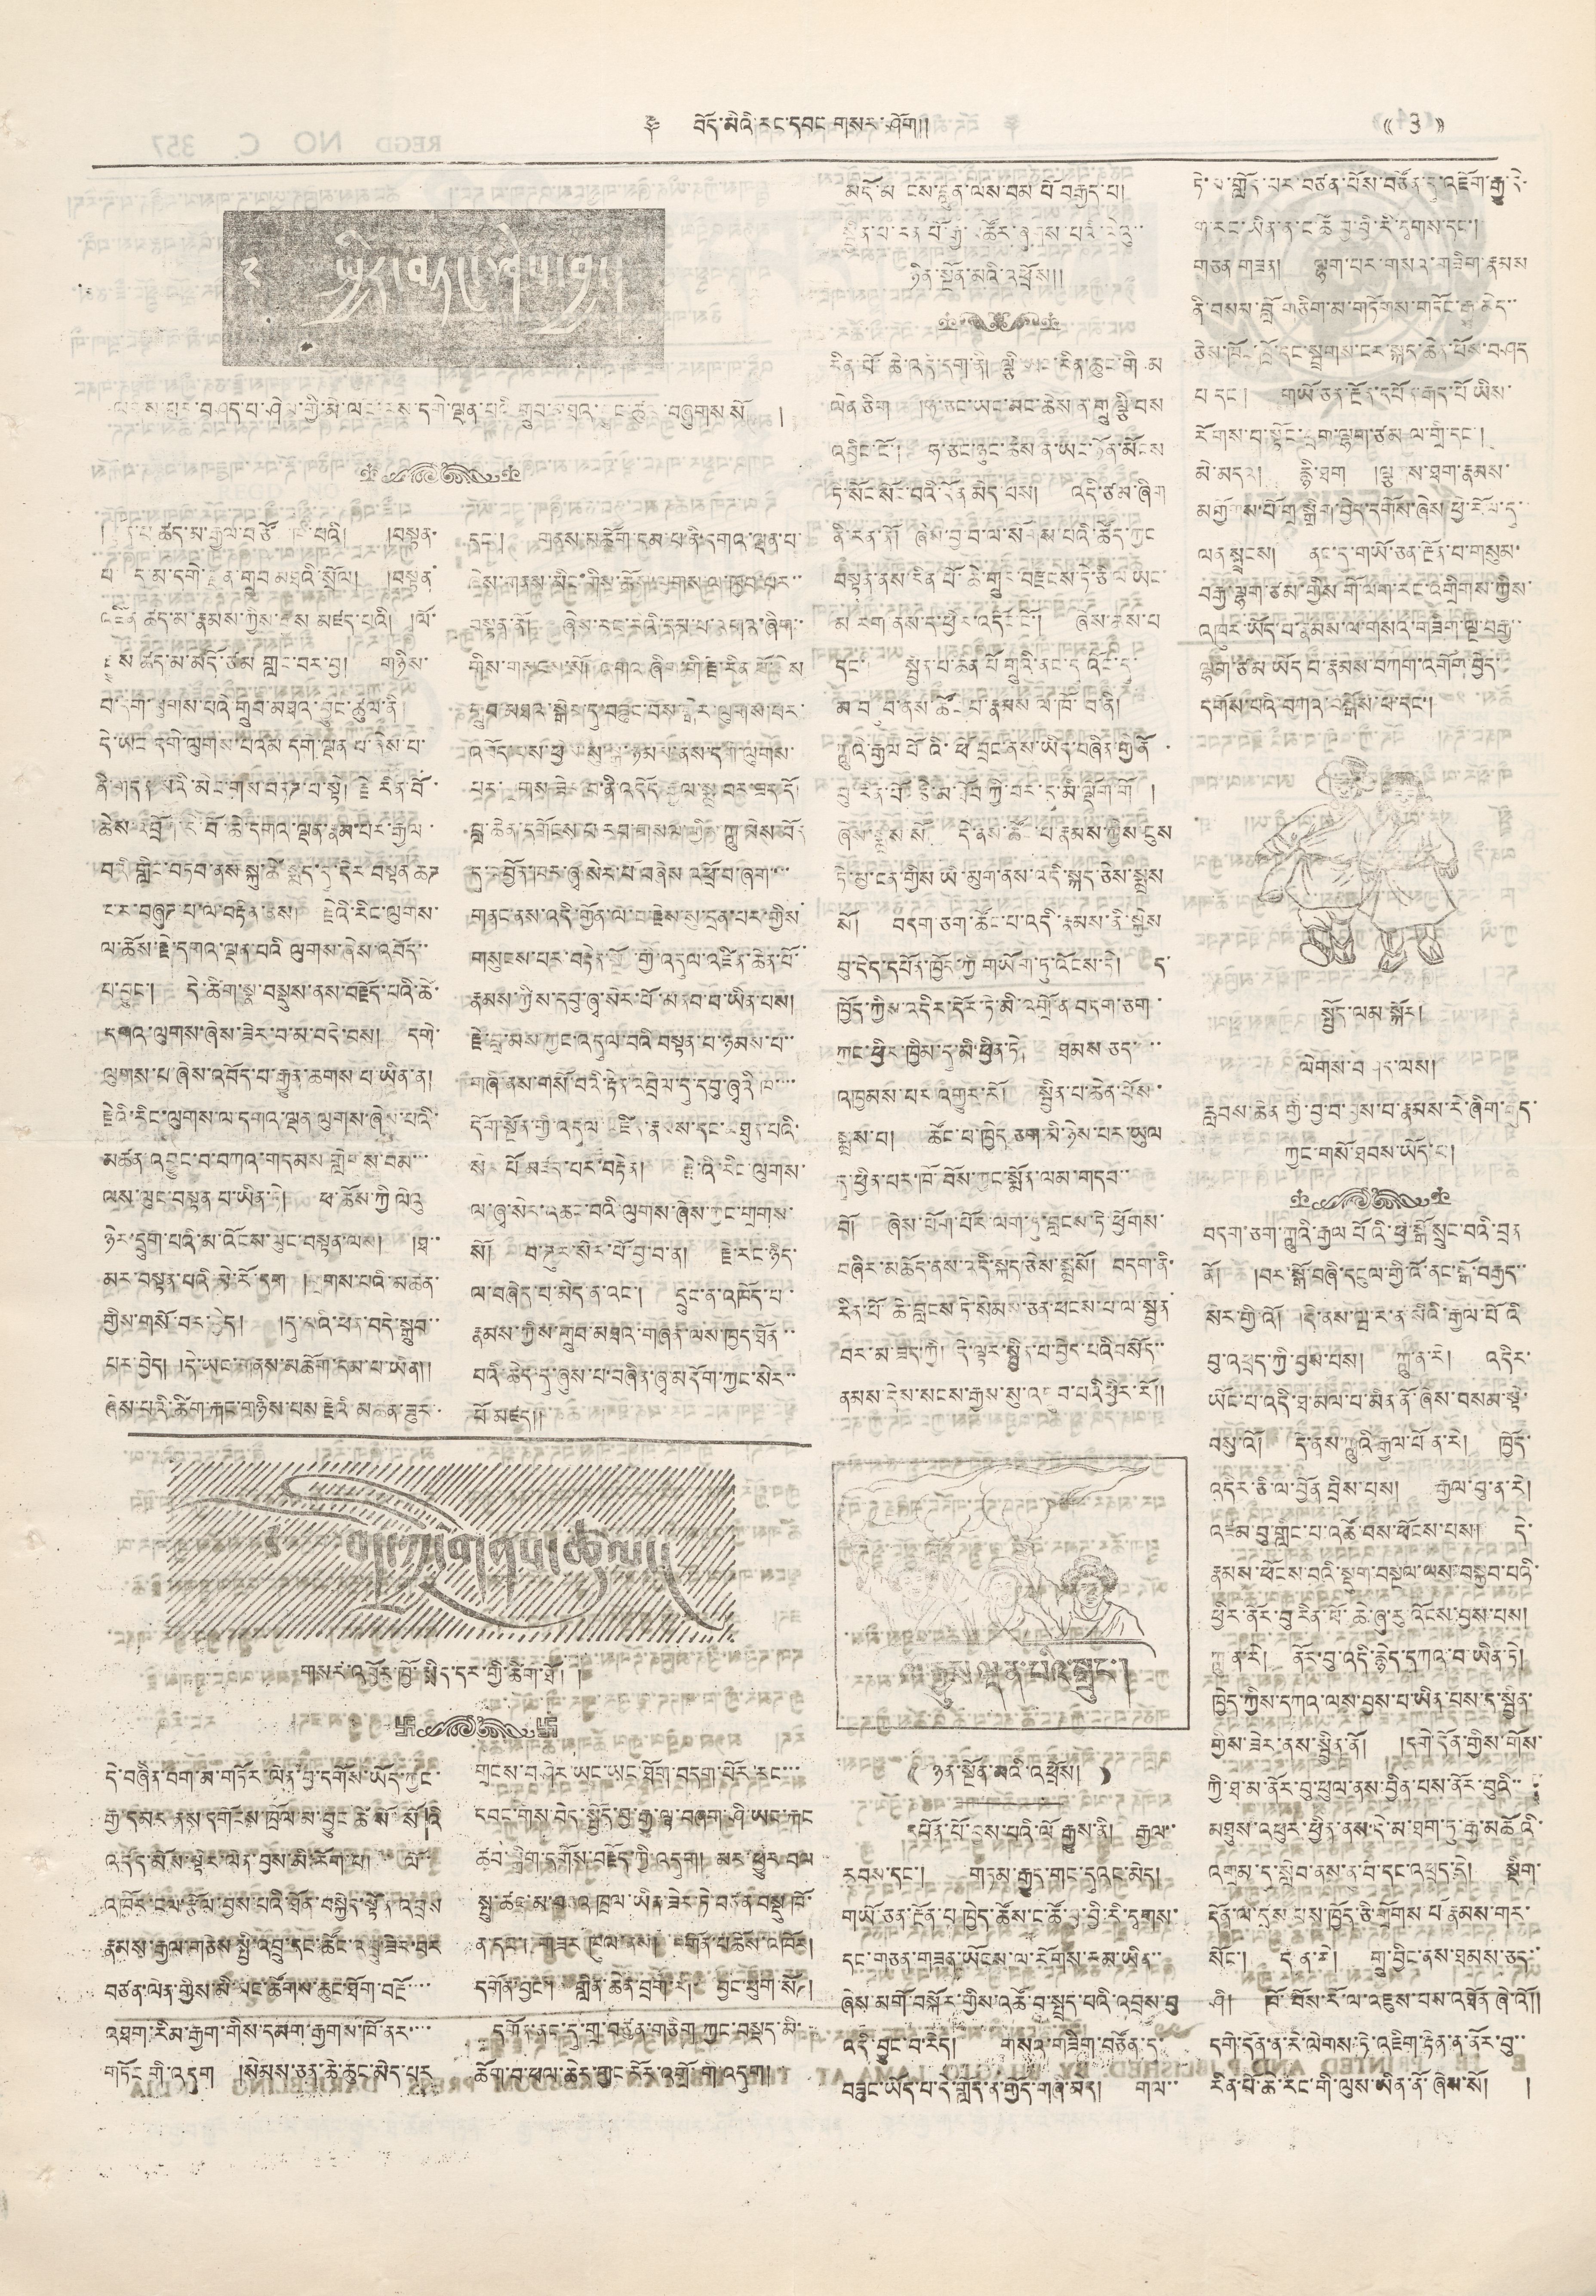༈ བོད་མའི་རང་དབང གསར་ཤོག༎ (( 3 ))
༄ སྤྱིར་བཏང་ཤེས་བྱ།
ལདས་བར་བཤད་པ་ཤེལ་གྱི་མེ་ལོང་ལས་དགེ་ལྡན་པའི གྲུབ་མཐའ་བྱུང་ཚུལ་བཞུགས་སོ། །
།སྟོན་པ ཚད་མ་རྒྱལ་བཙོང་ཁ་པའི། །བསྟན་
པ་ཚད་མ་དགེ་ལྡན་གྲུབ མཐའི་སྲོལ། །བསྟན་
འཛིན ཚད་མ་རྣམས་ཀྱིས་རྒྱས མཛད་པའི། །ལོ་
རྒྱུས་ཚད་མ་མདོ་ཙམ་གླང་བར་བྱ། གཉིས་
བ་དག་ཐུགས་པའི་གྲུབ་མཐའ་བྱུང་ཚུལ་ནི
དེ་ཡང དགེ་ལུགས་པའམ་དགེ་ལྡན་པ་ཞེས་པ་
ནི་གདན སའི་མིང་གས་བཏཌ་པ་སྟེ། རྗེ རིན་པོ་
ཆེས་འབྲོག་རེ་བོ་ཆེ་དགའ་ལྡན་རྣམ་པར་རྒྱལ་
བའི གླིང་བཏབ་ནས སྐུ་ཚེ་སྨད་དུ་དེར་བསྟན ཆཌ་
པར་བཞུཌ་པ་ལ་བརྟེན་ནས། རྗེའི་རིང་ལུགས་
ལ་ཆོས་རྗེ་དགའ་ལྡན་པའི ལུགས་ཞེས་འབོད་་
པ་བྱུང་། དེ་ཚིག་སྣ་བསྡུས་ནས་བརྗོད་པའི་ཚེ་
དགའ་ལུགས་ཞེས་ཟེར་པ་མ་བདེ་བས། དགེ་
ལུགས་པ་ཞེས་འབོད་པ་རྒྱུན་ཆགས་པ་ཡིན་ན།
རྗེའི་རིང་ལུགས་ལ་དགའ་ལྡན་ལུགས་ཞེས་པའི་
མཚན་འབྱུང་བ་བཀའ་གདམས གླིགས་བམ་་་
ལས་ལུང་བསྟན པ་ཡིན་ཏེ། ཕ་ཆོས་ཀྱི ལེའུ
ཉེར་དྲུག་པའི་མ་འོངས་ལུང་བསྟན་ལས། །ཐ་་
མར་བསྟན་པའི་མེ་རོ་དག །གྲགས་པའི་མཚན་
གྱིས་གསོ་བར་བྱེད། །དུ་མའི་ཕན་བདེ་སྒྲུབ་་
པར་བྱེད། དེ་ཡང་གནས་མཆོག་དམ་པ་ཡིན།།
ཞེས་པའི་ཚིག་རྐང་གཉིས་པས་རྗེའི མཚན་ཟུར་
དང་། གནས་མཆོག་དམ་པ་ནི་དགའ་ལྡན་པ་
ཞེས་གནས་མིང་གིས་ཆོས་ལུགས་ལ་ཁྱབ་པར་་
བསྟན་ནོ། ཞེས་རང་རེའི་དམ་པ་འགའ་ཞིག་་
གིས་གསངས་སོ། འགའ་ཞིག་གི་རྗེ་རིན་པོ་ཆེས
གྲུབ་མཐའ་སྒེར་དུ་བཟུང་བས་སྒེར་ལུགས་པར་
འབོད་པས་ཕྱིས་སུ་སྒྲ་ཉམས་ནས་དགེ་ལུགས་
པར་གྲགས་ཟེར་བ་ནི་འདོད་རྒྱལ་སྨྲ་བར་ཟད་དོ
བླ་ཆེན་དགོངས་པ་རབ་གསལ་གྱིས་ཀླུ་མེས་བོད
དུ་འབྱོན་ཁར་ཞྭ་སེར་པོ་བཞེས འཕྲོ་བ་ཞག་་་་
གནང་ནས་འདི་གྱོན་ལ་པ་རྗེས་སུ་དྲན་པར་གྱིས
གསུངས་པར་བརྟེན་སྔོ་གྱི་འདུལ་འཛིན་ཆེན་པོ་
རྣམས་ཀྱིས་དབུ་ཞྭ་སེར་པོ་མནབ་པ་ཡིན་པས།
རྗེ་བླ་མས་ཀྱང་འདུལ་བའི བསྟན་པ་ཉམས་པ་་
གཞི་ནས་གསོ་བའི་རྟེན་འབྲེལ་དུ་དབུ་ཞྭའི་ཁ་་་་
དོག་སྔོན་གྱི་འདུལ་འཛིན་རྣམས་དང་མཐུན་པའི་
སེར་པོ མཛད་པར་བརྟེན། རྗེའི་རིང་ལུགས་
ལ་ཞྭ་སེར་འཆང་བའི་ལུགས་ཞེས་ཀྱང་གྲགས་
སོ། བ་ཌུར་སེར་པོ་བྱ་བ་ན། རྗེ་རང་ཉིད་
ལ་བཞེད་པ་མེད་ན་འང་། དྲུང་ན་འཁོད་པ་
རྣམས་ཀྱིས་གྲུབ་མཐའ་གཞན་ལས་ཁྱད་ཐོན་་
པའི་ཆེད་དུ་ཞུས་པ་བཞིན་ཞྭ་མདོག་ཀྱང་སེར་་
པོ མཛད།།
༄། བོད་ཀྱི་གནས་ཚུལ།
གསར་འབྱོར་ཁྱོ་སྨིད་དར་གྱི་ཚིག་ཐོ། །
དེ་བཞིན་བག་མ་གཏོར་ལེན་བྱ་དགོས་ཡོད་ཀྱང་
རྒྱ་དམར ནས་དགོངས་ཁྲོལ་མ་བྱུང ཚེ སོ་སོའི
འདོད་མོས་སྟེར་ལེན་བྱས་མི་ཆོག་པ། ལོ་་
འཁོར་ངལ་རྩོལ་བྱས་པའི་ཐོན་བསྐྱེད་སྟོན་འབྲས
རྣམས་རྒྱལ་གཅེས་སྤྱི་འབྲུ་དང་ཚོང་འབྲུ་ཟེར་བར
བཙན་ལེན་གྱིས་མི་མང་ཚོགས་ཆུང་ཐོག་བརྔོ་་་་
འཐག་རིམ་རྒྱག་གིས་དམག་རྒྱགས་ཁོ་ནར་་་་
གཏོང་གི་འདུག །སེམས་ཅན་ཆེ་ཆུང་མེད་པར
གྲངས་བཤེར་ཡང་ཡང་ཐོག་བདག་པོར་རང་་་
དབང་གིས་བདེ་སྤྱོད་བྱ་རྒྱུ་ལྟ་བཞག་ཤི་ཡང་རྐང
ཚུབ་སྒྲིག་དགོས་བརྗོད་ཀྱི་འདུག། མར་ཕྱུར བལ
སྤུ་ཚང་མ་བཅའ་ཁྲལ་ཡིན་ཟེར་ཏེ་བཙན་བསྡུ ཁོ་
ན་དང་། གཟར་ཁུལ་ནས། དགོན་པ་ཆོས་འཁོར།
དགོན་བྱང་། གླིང་ཆེན་བྲག་རི། བྱང་ཕུག་སོཌ།
དགོན་ནང་དུ་གྲ་བཙུན་གཅིག ཀྱང་བསྡད་མི་
ཆོག་བ་ཕལ་ཆེར་གྱང་རོར་འགྲོ་གི་འདུག།
མདོ་མ ངས་བླུན་ལ་བམ པོ བརྒྱད་པ།
སྦྱིན་པ་རན པོ་རྒྱ་མཚོར་ཞུགས་པའི་ལེའུ་་
ཉིན་སྔོན་མའི་འཕྲོས།།
རིན་པོ་ཆེ་འདི་དག་ནི། ལྕི་ཡང་རིན་ཆུང་གི མ
ལེན ཅིག །ཧ་ཅང་ཡང་མང་ཆེས ན་གྲུ་ལྕི་བས
འབྱིང་ངོ་། ཧ་ཅང་ཉུང་ཆེས་ན་ཡང་ཉོན་མོངས
ཏེ་སོང་སོང་བའི་དོན མེད་པས། འདི་ཙམ་ཞིག
ནི་རན་ནོ། ཆེས་བྱ་བ་ལ་སོགས་པའི་ཚོད་ཀྱང
བསྟན་ནས་རིན་པོ་ཆེ་གྲུང་བརྫངས་ཏེ་ཅི་ལ ཡང་
མ རག ནས་ད་ཕྱིར་འདོང་ངོ་། ཞེས་ཆས་པ
དང་། སྦྱིན་པ་ཆན་པོ གྲུའི་ནང་དུ འོང་དུ་
མ བཏུབ་ནས་ཚོང་པ་རྣམས ལ་ཁོ་བ་ནི།
ཀླུའི་རྒྱལ པོའི་ཕོ་བྲང་ནས་ཡིད་བཞིན་གྱི ནོ
བུ་རིན་པོ་ཆེ་མ་ཐོབ་ཀྱི་བར་དུ་མི་ལྡིག་གི །
ཞེས་སྨྲས་སོ། དེ་ནས་ཚོང་པ་རྣམས་ཀྱིས་ངུས་
དེ་མྱ་ངན་གྱིས ཡི་མུག་ནས་འདི་སྐད་ཅེས་སྨྲས
སོ། བདག་ཅག་ཚོང་པ་འདི་རྣམས་ནི་སྐྱེས
བུ་དེད་དཔོན་ཁྱོད་ཀྱི གཡོག་ཏུ་འོངས་ཏེ། ད་
ཁྱོད་ཀྱིས་འདིར་དོར་ཏེ་མི་འགྲོ་ན་བདག་ཅག་
ཀྱང་ཕྱིར་ཁྱིམ་དུ་མི་ཕྱིན་ཏེ། ཐམས་ཅད་་་་
འཁྱམས་པར་འགྱུར་རོ། སྦྱིན་པ་ཆེན་པོས་
སྨྲས་པ། ཚོང་པ་ཁྱེད ཅག་མི་ཉེས་པར་ཡུལ
དུ་ཕྱིན་པར་ཁོ་བོས་ཀྱང་སྨོན་ལམ་གདབ་་
བོ། ཞེས་པོག་པོར་ལག་ཏུ་བླངས་ཏེ་ཕྱོགས་
བཞིར་མཆོད་ནས་འདི་སྐད་ཅེས་སྨྲསོ། བདག་ནི་
རིན་པོ་ཆེ་བ༹ླངས་ཏེ་སེམས་ཅན་ཕངས་པ་ལ་སྦྱན
བར་མ་ཟད་ཀྱི། དེ་ལྟར་སྦྱིན་པ་བྱེད་པའི བསོད་་་
ནམས་དེས་སངས་རྒྱས་སུ་འགྲུབ་པའི་ཕྱིར་རོ།།
ལོ་རྒྱས་ལྡན་པའི་སྒྲུང་།
(( ཉིན་སྔོན་མའི་འཕྲོས། ))
དཔོན་པོ་བྱས་པའི་ལོ རྒྱུས་ནི། རྒྱལ་་
རབས་དང་། གཏམ་རྒྱུད་གང་དུའང་མེད།
གཡོ་ཅན་རྔོན་པ་ཁྱེད་ཚོས་ང་ཚོ་བྱ་བྱི་དྭགས་
དང་གཅན་གཟན་ཡོངས་ལ་རོགས་རམ་ཡིན་་
ཞེས་མགོ་བསྐོར་གྱིས་འཚོ་བ་སྤྲད་པའི་འབྲས་བུ
འདི་བྱུང་བ་རེད། གསའ་གཟིག་བཙོན་དུ་
བཟུང་ཡོད་པ་དེ་གློད་ན་གྱོད་གཞི་མེད། གལ་་
ཏེ་པ་གློད་པར་བཙན་པོས་བཙོན་དུ་འཇོག་རྒྱ་དེ་
ག་རང་ཡིན་ན་ང་ཚོ་བྱ་བྱི་རི་དྭགས་དང་།
གཅན གཟན། ལྷག་པར་གསའ་གཟིག་རྣམས
ནི་བསམ་བློ་གཅིག་མ་གཏོགས་གདོང་རྒྱུ་མེད་་
ཅེས་ཁོང་ཁྲོ་དང་སྦྲགས་ངར་སྐར་ཆེན་པོས་བཤད
པ དང་། གཡོ་ཅན་རྔོན་དཔོན་རྒད་པོ་ཡིས་
རོགས་པ་སྟོང་དྲག་ལྷག་ཙམ ལ་གྲི་དང་།
མེ་མདའ། རྙི་ཐག །ལྕགས་ཐག་རྣམས་
མགྱོགས་པོ་གྲ་སྒྲིག་བྱེད་དགོས་ཞེས་ཕྱེ་རོལ་དུ་་
ལན སྤྲངས། ནང་དུ་གཡོ་ཅན་རྔོན་བ་གསུམ་
བརྒྱ་ལྷག་ཙམ་གྱིས གོ་ལག་རང་འགྲིགས་ཀྱིས་
འཁུར་ཡོད་པ་རྣམས་པ་གསའ་གཟིག་ལྔ་བརྒྱ་་
ལྷག་ཙམ་ཡོད་པ་རྣམས་བཀག་འགོག་བྱེད་
དགོས་པའི་བཀའ་བསྒོས་པ་དང་།
སྤྱོད་ལམ་སྐོར།
ལེགས་བཤད་ལས།
རླབས་ཆེན་གྱི་བྱ་བ་བྱས་པ་རྣམས་རེ་ཞིག་རྒུད་
ཀྱང་གསོ་ཐབས་ཡོད་བ།
བདག་ཅག་ཀླུའི་རྒྱལ པོའི་ཕྱི་སྒོ་སྲུང་བའི་བྲན
ནོ། །བར་སྒོ་བཞི་དངུལ་གྱི་འོ་ནང་སྒོ་བརྒྱད་་
སེར་གྱི་འོ། །དེ་ནས་ཝ་ར་ན་སིའི་རྒྱལ་པོའི
བུ་འཕྲད་ཀྱི་བྱས་པས། ཀླུ་ན་རེ། འདིར་
ཡོང་པ་འདི་ཐ་མལ་པ་མིན་ནོ་ཞེས་བསམ་སྟེ་
བསུ་འོ། དེ་ནས་ཀླུའི་རྒྱལ་པོ ན་རེ། ཁྱོད་
འདིར་ཅི་ལ་བྱོན བྲིས་པས། རྒྱལ་བུ་ན་རེ།
འཛམ་བུ་གླིང་པ་འཚོ་བས་ཕོངས་པས། དེ་
རྣམས་ཕོངས་བའི་སྡུག་བསྔལ་ལས་བསྐྱབ་པའི་
ཕྱིར་ནོད་བུ རིན་པོ་ཆེ་ཞུ་རུ་འོངས་བྱས་པས།
ཀླུ་ན་རེ། ནོར་བུ་འདི་རྙེད་དཀའ་བ་ཡོན་ཏེ།
ཁྱེད་ཀྱིས་དཀའ་ལས་བྱས་པ་ཡིན་པས་ད་སྦྱིན་
གྱིས་ཟེར་ནས་སྦྱིན་ནོ། །དགེ་དོན་གྱིས་གོས་
ཀྱི་ཐ་མ་ནོར་བུ་ཕུལ་ནས་བྱིན་པས་ནོར་བུའི་་
མཐུས་འཕུར་ཕྱིན་ནས་དེ་མ་ཐག་ཏུ་རྒྱ་མཚོའི་
འགྲམ་དུ་སླེབ་ནས་ནུ་བ་དང་འཕྲད་དེ། སྡིག་
དོན་ལ་དྲས་པས་ཁྱོད་ཅི་གྲོགས་པོ རྣམས་གར་
སོང་། ད་ན་རེ། གྲུ་བྱིང་ནས་ཐམས་ཅད་་
ཤི། ཁོ་བོས་རོ་ལ་འཇུས་པས་འཐོན་ ཞེ་འོ།།
དགེ་དོན་ན་རེ་ལེགས་ཏེ་འཇིག་རྟེན་ན་ནོར་བུ་་
རིན་པོ་ཆེ་རང་གི་ལུས་ཡིན་ནོ་ཞེས་སོ། །
